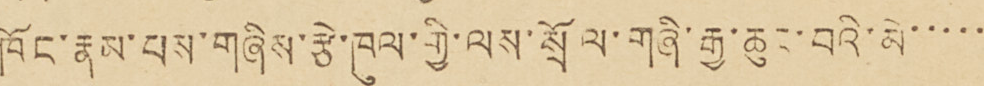ཁོང་རྣམ་པས་གཞིས་རྩེ་ཁུལ་གྱི་ལས་སྲོལ་གཞི་རྒྱ་ཆུང་བའི་མེ་་་་་
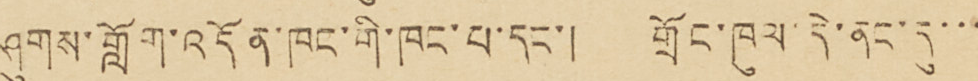ཤུགས་གློག་འདོན་ཁང་གི་ཁང་པ་དང་། གྲོང་ཁུལ་དེ་ནང་དུ་་་
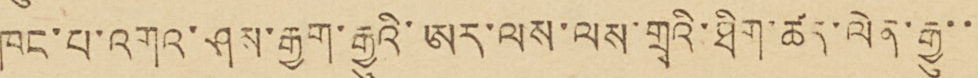ཁང་པ་འགའ་ཤས་རྒྱག་རྒྱུའི་ཨར་ལས་ལས་གྲྭའི་ཐིག་ཚད་ལེན་རྒྱུ་་་
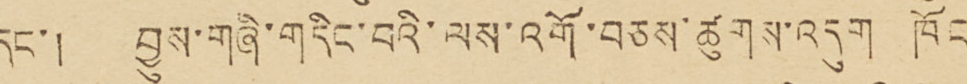དང་། བྱུས་གཞི་གདིང་བའི་ལས་འགོ་བཅས་ཚུགས་འདུག ཁོང་
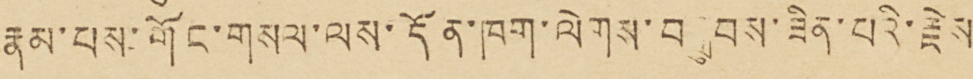རྣམ་པས་གོང་གསལ་ལས་དོན་ཁག་ལེགས་བསྒྲུབས་ཟིན་པའི་རྗེས་
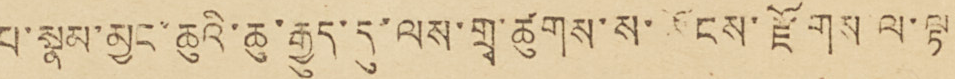པ་སྣམ་མྱང་ཆུའི་ཆུ་རྒྱུད་དུ་ལས་གྲྭ་ཚུགས་ས་ཡོངས་རྫོགས་ལ་ལྟ་་
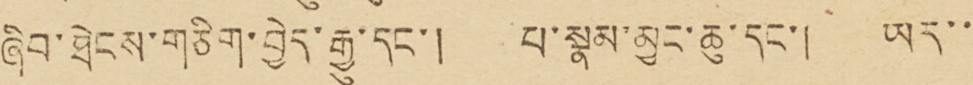ཞིབ་ཐེངས་གཅིག་བྱེད་རྒྱུ་དང་། པ་སྣམ་མྱང་ཆུ་དང་། ཡར་་་
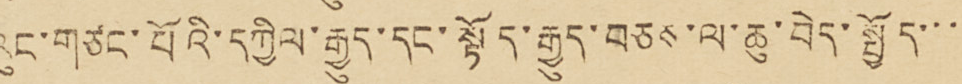ལུང་གཙང་པོའི་དཀྱིལ་རྒྱུད་དང་སྟོད་རྒྱུད་བཅས་ལ་ཆུ་བེད་སྤྱོད་་་་
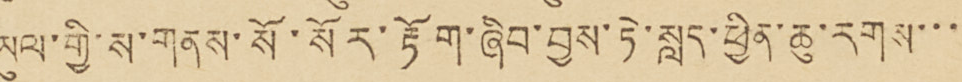ཡུལ་གྱི་ས་གནས་སོ་སོར་རྟོག་ཞིབ་བྱས་ཏེ་སླད་ཕྱིན་ཆུ་རགས་་་་
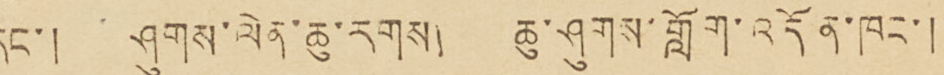དང་། ཤུགས་ལེན་ཆུ་རགས། ཆུ་ཤུགས་གློག་འདོན་ཁང་།
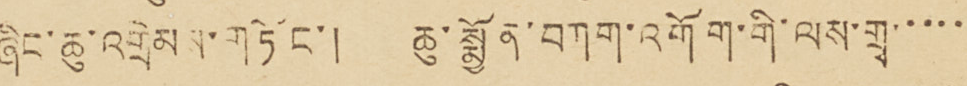ཞིང་ཆུ་འགྲེམས་གཏོང་། ཆུ་སྨྱོན་བཀག་འགོག་གི་ལས་གྲྭ་་་་་་
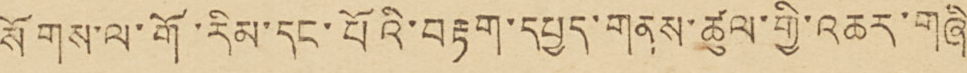སོགས་ལ་གོ་རིམ་དང་པོའི་བརྟག་དཔྱད་གནས་ཚུལ་གྱི་འཆར་གཞི་
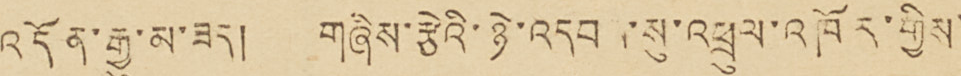འདོན་རྒྱུ་མ་ཟད། གཞིས་རྩེའི་ཉེ་འདབས་སུ་འཕྲུལ་འཁོར་གྱིས་་
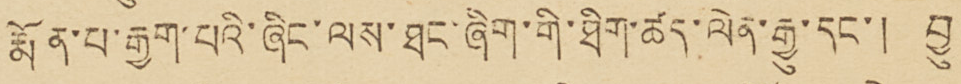རྨོན་པ་རྒྱག་པའི་ཞིང་ལས་ཐང་ཞིག་གི་ཐིག་ཚད་ལེན་རྒྱུ་དང་། བྱུས་
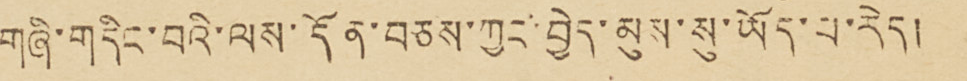གཞི་གདིང་བའི་ལས་དོན་བཅས་ཀྱང་བྱེད་མུས་སུ་ཡོད་པ་རེད། །
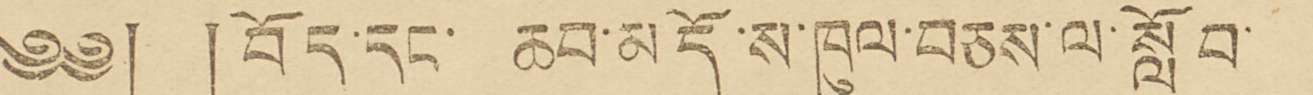༄༅། །བོད་དང་ ཆབ་མདོ་ས་ཁུལ་བཅས་ལ་སློབ་
